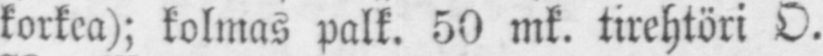korkea); kolmas palk. 50 mk. tirehtöri O.
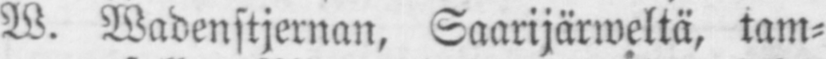W. Wadenstjernan, Saarijärweltä, tam-
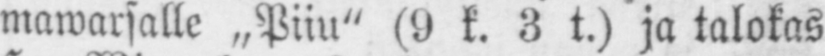mawarsalle „Piiu" (9 k.3 t.) ja talokas
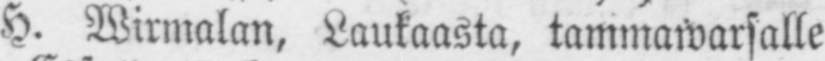H. Wirmalan, Laukaasta, tammawarsalle
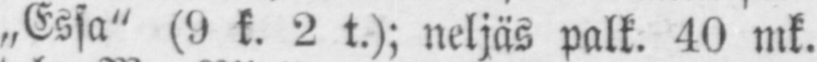„Essa" (9 k. 2 t.); neljäs palk. 40 mk.
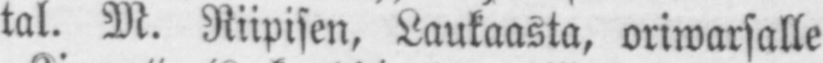tal. M. Riipisen, Laukaasta, oriwarsalle
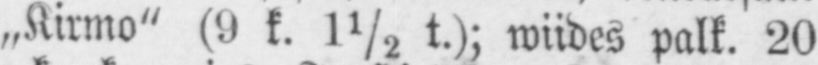„Kirmo" (9 k. 1½ t.); wiides palk. 20
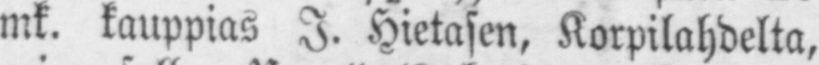mk. kauppias I. Hietasen, Korpilahdelta,
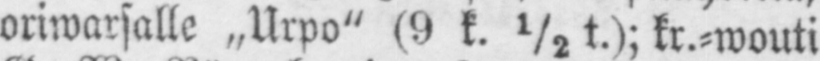oriwarsalle „Urpo" (9 k. ½ t.); kr.-wouti
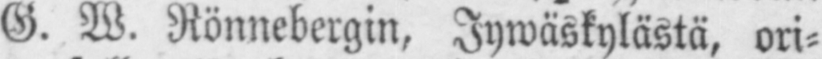G. W. Rönnebergin, Jywäskylästä, ori-
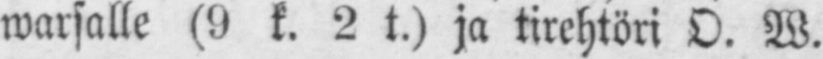warsalle (9 k. 2 t.) ja tirehtöri O. W.
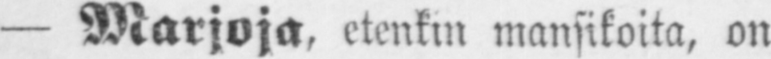— Marjoja, etenkin mansikoita, on
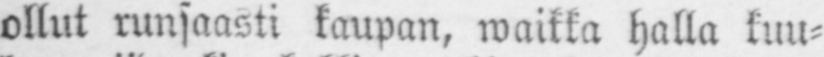ollut runsaasti kaupan, waikka halla kuu-
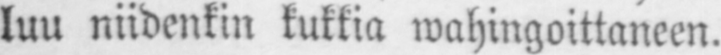luu niidenkin kukkia wahingoittaneen.
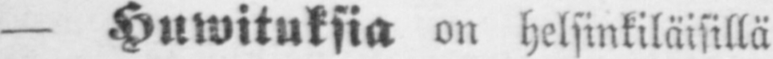— Huwituksia on helsinkiläisillä
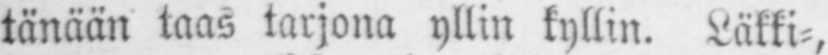tänään taas tarjona yllin kyllin. Läkki-,
